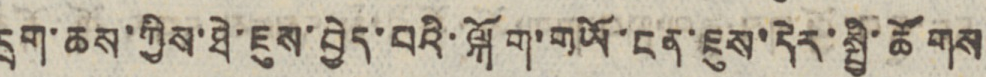དྲག་ཆས་ཀྱིས་ཐེ་ཇུས་བྱེད་པའི་ལྐོག་གཡོ་ངན་ཇུས་དེར་སྤྱི་ཚོགས
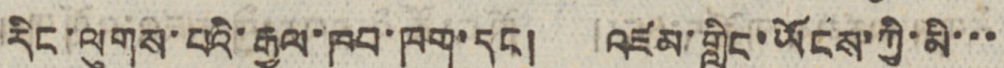རིང་ལུགས་པའི་རྒྱལ་ཁབ་ཁག་དང། འཛམ་གླིང་ཡོངས་ཀྱི་མི་་་
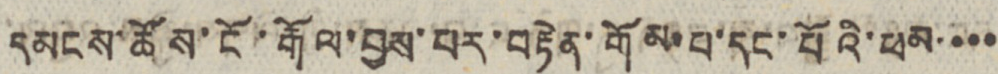དམངས་ཚོས་ངོ་རྒོལ་བྱས་པར་བརྟེན་གོམ་པ་དང་པོའི་ཕམ་་་་
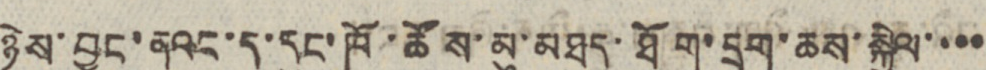ཉེས་བྱུང་ནའང་ད་དུང་ཁོ་ཚོས་མུ་མཐུད་ཐོག་དྲག་ཆས་སྐྱིལ་་་་
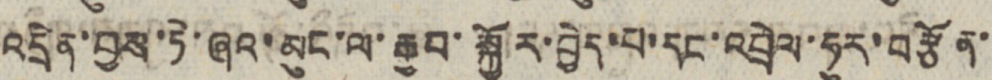འདྲེན་བྱས་ཏེ་ཞའ་མུང་ལ་རྒྱབ་སྐྱོར་བྱེད་པ་དང་འབྲེལ་ཧུར་བརྩོན་
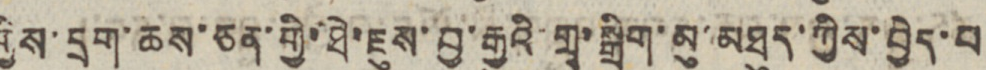གྱིས་དྲག་ཆས་ཅན་གྱི་ཐེ་ཇུས་བྱ་རྒྱུའི་གྲྭ་སྒྲིག་མུ་མཐུད་ཀྱིས་བྱེད་པ
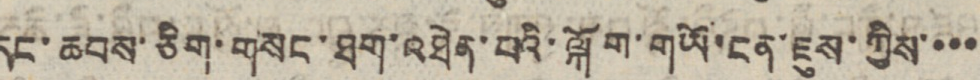དང་ཆབས་ཅིག་གསང་ཐག་འཐེན་པའི་ལྐོག་གཡོ་ངན་ཇུས་ཀྱིས་་་་
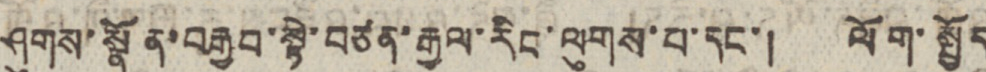ཤུགས་སྣོན་བརྒྱབ་སྟེ་བཙན་རྒྱལ་རིང་ལུགས་པ་དང་། ལོག་སྤྱོད
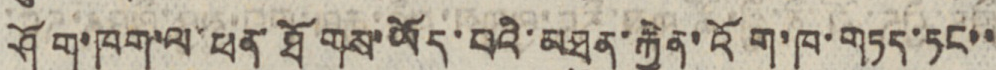ཤོག་ཁག་ལ་ཕན་ཐོགས་ཡོད་པའི་མཐུན་རྐྱེན་འོག་ཁ་གཏད་ཏང་་
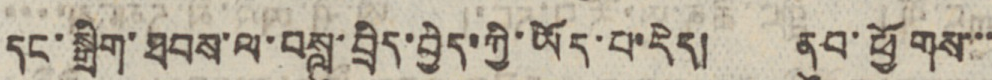དང་སྒྲིག་ཐབས་ལ་བསླུ་བྲིད་བྱེད་ཀྱི་ཡོད་པ་རེད། ནུབ་ཕྱོགས་་་
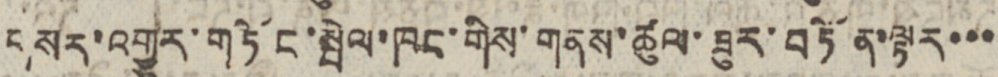གསར་འགྱུར་གཏོང་སྦེལ་ཁང་གིས་གནས་ཚུལ་ཟུར་བཏོན་ལྟར་་་
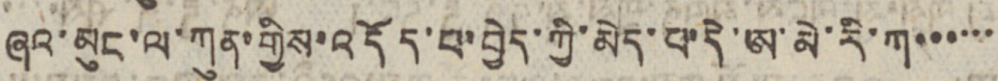ཞའ་མུང་ལ་ཀུན་གྱིས་འདོད་པ་བྱེད་ཀྱི་མེད་པ་དེ་ཨ་མེ་རི་ཀ་་་་་་
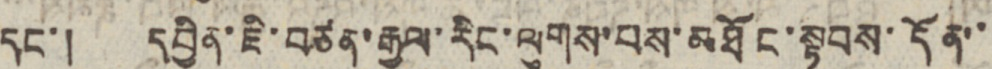དང་། དབྱིན་ཇི་བཙན་རྒྱལ་རིང་ལུགས་པས་མཐོང་སྟབས་དོན་་
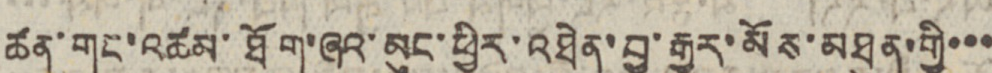ཚན་གང་འཚམ་ཐོག་ཞའ་མུང་ཕྱིར་འཐེན་བྱ་རྒྱུར་མོས་མཐུན་གྱི་་་
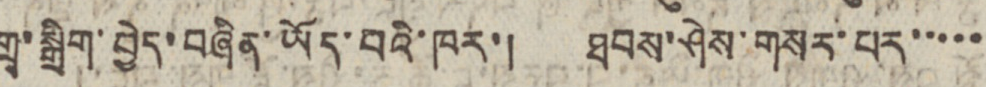གྲྭ་སྒྲིག་བྱེད་བཞིན་ཡོད་པའི་ཁར་། ཐབས་ཤེས་གསར་པར་་་་་
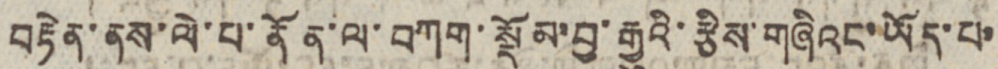བརྟེན་ནས་ལེ་པ་ནོན་ལ་བཀག་སྡོམ་བྱ་རྒྱུའི་རྩིས་གཞིའང་ཡོད་པ་
